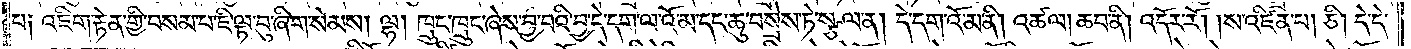པ༑ འཇིག་རྟེན་གྱི་བསམ་པ་ཇི་ལྟ་བུ་ཞིག་སེམས། ལྷ། ཁྲུང་ཁྲུང་ཞེས་བྱ་བའི་བྱ་དེ་དག་ལ་འོ་མ་དང་ཆུ་བསྲེས་ཏེ་སྩལ་ན། དེ་དག་འོ་མ་ནི། འཚལ། ཆབ་ནི། འདོར་རོ། །ས་འཛིན་པ། ཅི། དེ་དེ་
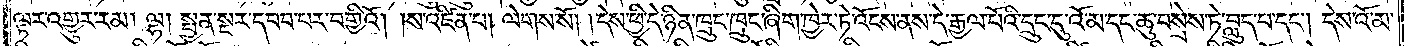ལྟར་འགྱུར་རམ། ལྷ། སྤྱན་སྔར་དབབ་པར་བགྱིའོ། །ས་འཛིན་པ། ལེགས་སོ། །དེས་ཕྱི་དེ་ཉིན་ཁྲུང་ཁྲུང་ཞིག་ཁྱེར་ཏེ་འོངས་ནས་དེ་རྒྱལ་པོའི་དྲུང་དུ་འོ་མ་དང་ཆུ་བསྲེས་ཏེ་བླུད་པ་དང༌། དེས་འོ་མ་
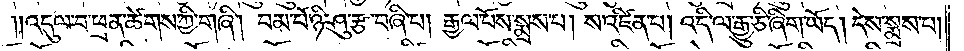༎འདུལ་བ་ཕྲན་ཚེགས་ཀྱི་གཞི། བམ་པོ་ཉི་ཤུ་རྩ་བཞི་པ། རྒྱལ་པོས་སྨྲས་པ། ས་འཛིན་པ། འདི་ལ་རྒྱུ་ཅི་ཞིག་ཡོད། དེས་སྨྲས་པ།
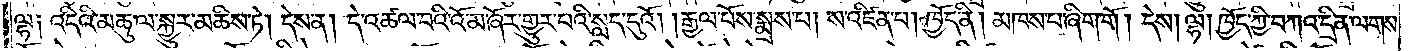ལྷ༑ འདིའི་མཆུ་ལ་སྐྱུར་མཆིས་ཏེ། དེས་ན། དེ་འཚལ་བའི་འོ་མ་ཞོར་གྱུར་བའི་སླད་དུའོ། །རྒྱལ་པོས་སྨྲས་པ། ས་འཛིན་པ། ཁྱོད་ནི། མཁས་པ་ཞིག་གོ། དེས། ལྷ། ཁྱོད་ཀྱི་བཀའ་དྲིན་ལགས་
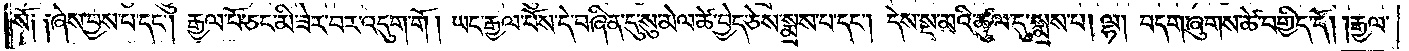སོ༑ ༑ཞེས་བྱས་པ་དང༌། རྒྱལ་པོ་ཅང་མི་ཟེར་བར་འདུག་གོ །ཡང་རྒྱལ་པོས་དེ་བཞིན་དུ་སུ་མེལ་ཚེ་བྱེད་ཅེས་སྨྲས་པ་དང༌། དེས་སྔ་མའི་ཚུལ་དུ་སྨྲས་པ། ལྷ། བདག་ཞུགས་ཚེ་བགྱིད་དོ། །རྒྱལ་
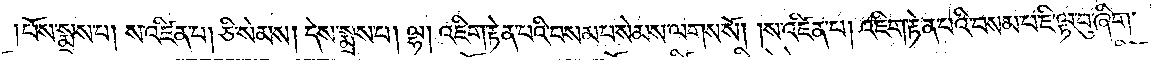པོས་སྨྲས་པ། ས་འཛིན་པ། ཅི་སེམས། དེས་སྨྲས་པ། ལྷ། འཇིག་རྟེན་པའི་བསམ་པ་སེམས་ལགས་སོ། །ས་འཛིན་པ། འཇིག་རྟེན་པའི་བསམ་པ་ཇི་ལྟ་བུ་ཞིག་
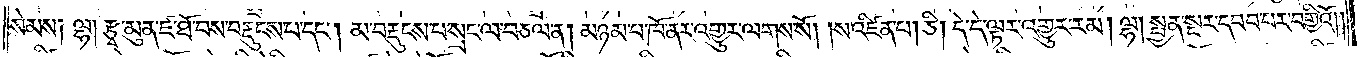སེམས༑ ལྷ། རྩྭ་མུན་ཛ་ཐོ་བས་བརྡུངས་པ་དང༌། མ་བརྡུངས་པ་སྲང་ལ་བཅལ་ན། མཉམ་པ་ཁོ་ནར་འགྱུར་ལགས་སོ། །ས་འཛིན་པ། ཅི། དེ་དེ་ལྟར་འགྱུར་རམ། ལྷ། སྤྱན་སྔར་དབབ་པར་བགྱིའོ༎
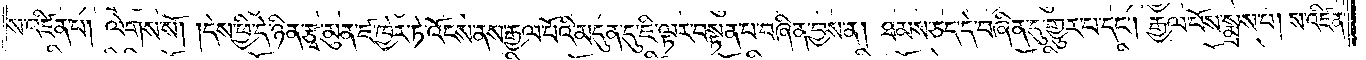ས་འཛིན་པ། ལེགས་སོ། །དེས་ཕྱི་དེ་ཉིན་རྩྭ་མུན་ཛ་ཁྱེར་ཏེ་འོངས་ནས་རྒྱལ་པོའི་མདུན་དུ་ཇི་ལྟར་བསྟན་པ་བཞིན་བྱས་ན། ཐམས་ཅད་དེ་བཞིན་དུ་གྱུར་པ་དང༌། རྒྱལ་པོས་སྨྲས་པ། ས་འཛིན་
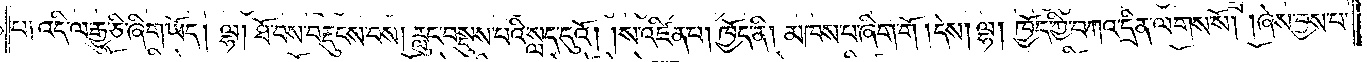པ༑ འདི་ལ་རྒྱུ་ཅི་ཞིག་ཡོད། ལྷ། ཐོ་བས་བརྡུངས་བས། རླུང་བསྡུས་པའི་སླད་དུའོ། །ས་འཛིན་པ། ཁྱོད་ནི། མཁས་པ་ཞིག་གོ །དེས། ལྷ། ཁྱོད་ཀྱི་བཀའ་དྲིན་ལགས་སོ། །ཞེས་བྱས་པ་
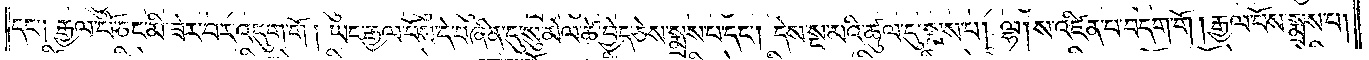དང་༑ རྒྱལ་པོ་ཅང་མི་ཟེར་བར་འདུག་གོ །ཡང་རྒྱལ་པོས་དེ་བཞིན་དུ་སུ་མེལ་ཚེ་བྱེད་ཅེས་སྨྲས་པ་དང༌། དེས་སྔ་མའི་ཚུལ་དུ་སྨྲས་པ། ལྷ། ས་འཛིན་པ་བདག་གོ །རྒྱལ་པོས་སྨྲས་པ།
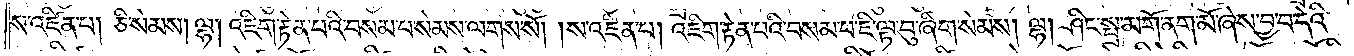ས་འཛིན་པ། ཅི་སེམས། ལྷ། འཇིག་རྟེན་པའི་བསམ་པ་སེམས་ལགས་སོ། །ས་འཛིན་པ། འཇིག་རྟེན་པའི་བསམ་པ་ཇི་ལྟ་བུ་ཞིག་སེམས། ལྷ། ཤིང་སྤྲ་མགོ་ནག་མོ་ཞེས་བྱ་བ་དེའི་
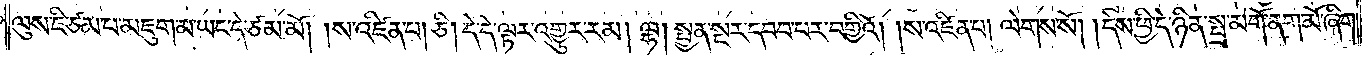ལུས་ཇི་ཙམ་པ་མཇུག་མ་ཡང་དེ་ཙམ་མོ། །ས་འཛིན་པ། ཅི། དེ་དེ་ལྟར་འགྱུར་རམ། ལྷ། སྤྱན་སྔར་དབབ་པར་བགྱིའོ། །ས་འཛིན་པ། ལེགས་སོ། །དེས་ཕྱི་དེ་ཉིན་སྤྲ་མགོ་ནག་མོ་ཞིག་
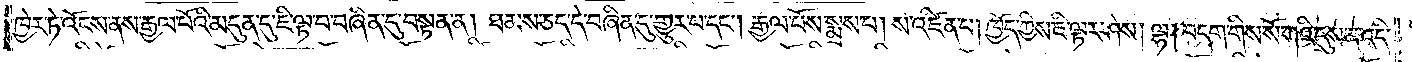ཁྱེར་ཏེ་འོངས་ནས་རྒྱལ་པོའི་མདུན་དུ་ཇི་ལྟ་བ་བཞིན་དུ་བསྟན་ན། ཐམས་ཅད་དེ་བཞིན་དུ་གྱུར་པ་དང༌། རྒྱལ་པོས་སྨྲས་པ། ས་འཛིན་པ། ཁྱོད་ཀྱིས་ཇི་ལྟར་ཤེས། ལྷ། བདག་གིས་སོ་གའི་དུས་ན་འདི་
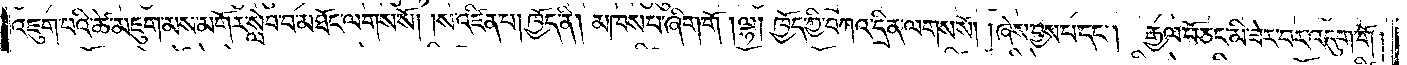འཇུག་པའི་ཚེ་མཇུག་མས་མགོར་སླེབ་བ་མཐོང་ལགས་སོ། །ས་འཛིན་པ། ཁྱོད་ནི། མཁས་པ་ཞིག་གོ །ལྷ། ཁྱོད་ཀྱི་བཀའ་དྲིན་ལགས་སོ། །ཞེས་བྱས་པ་དང༌། རྒྱལ་པོ་ཅང་མི་ཟེར་བར་འདུག་གོ །
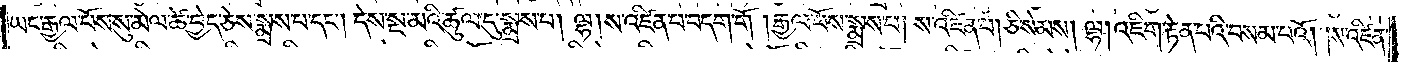ཡང་རྒྱལ་པོས་སུ་མེལ་ཚེ་བྱེད་ཅེས་སྨྲས་པ་དང༌། དེས་སྔ་མའི་ཚུལ་དུ་སྨྲས་པ། ལྷ། ས་འཛིན་པ་བདག་གོ །རྒྱལ་པོས་སྨྲས་པ། ས་འཛིན་པ། ཅི་སེམས། ལྷ། འཇིག་རྟེན་པའི་བསམ་པའོ། །ས་འཛིན་
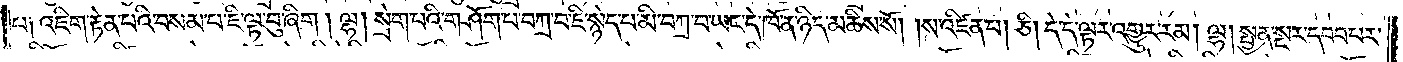པ༑ འཇིག་རྟེན་པའི་བསམ་པ་ཇི་ལྟ་བུ་ཞིག །ལྷ། སྲེག་པའི་གཤོག་པ་བཀྲ་བ་ཇི་སྙེད་པ་མི་བཀྲ་བ་ཡང་དེ་ཁོ་ན་ཉིད་མཆིས་སོ། །ས་འཛིན་པ། ཅི། དེ་དེ་ལྟར་འགྱུར་རམ། ལྷ། སྤྱན་སྔར་དབབ་པར་
